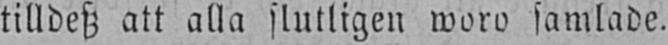tilldesz att alla slutligen woro samlade.
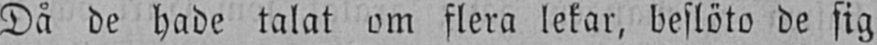Då de hade talat om flera lekar, beslöto de sig
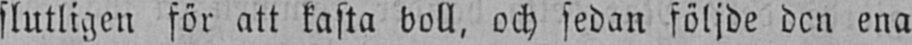slutligen för att kasta boll, och sedan följde den ena
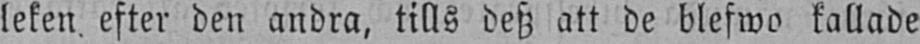leken efter den andra, tills desz att de blefwo kallade
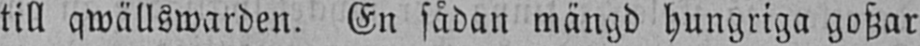till qwällswarden. En sådan mängd hungriga goszar
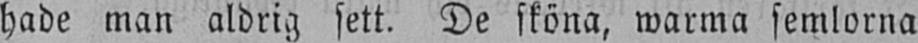hade man aldrig sett. De sköna, warma semlorna
